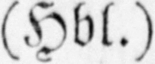(Hbl.)
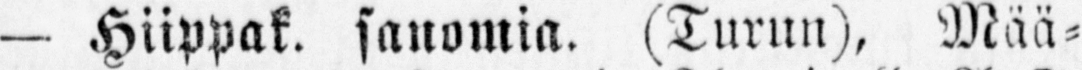— Hiippak. sanomia. (Turun), Mää-
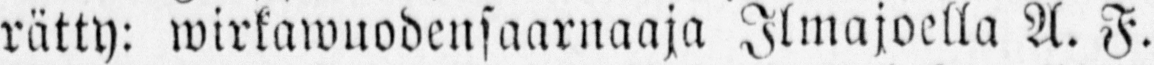rätty: wirkawuodensaarnaaja Ilmajoella A. F.
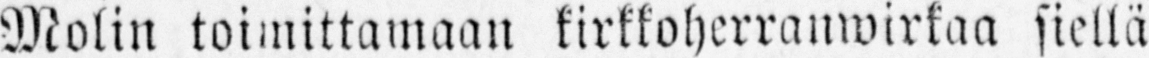Molin toimittamaan kirkkoherranwirkaa siellä
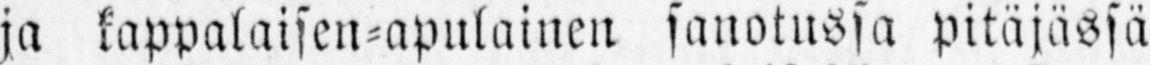ja kappalaisen-apulainen sanotussa pitäjässä
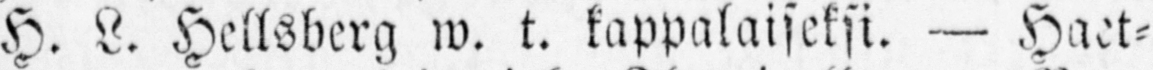H. L. Hellsberg w. t. kappalaiseksi. — Haet-
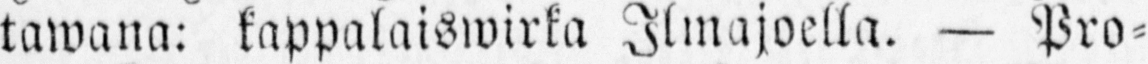tawana: kappalaiswirka Ilmajoella. — Pro-
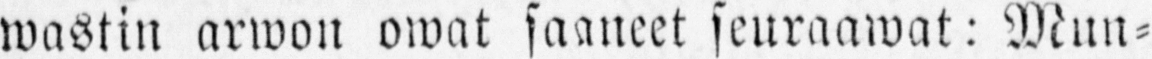wastin arwon owat saaneet seuraawat: Mun-
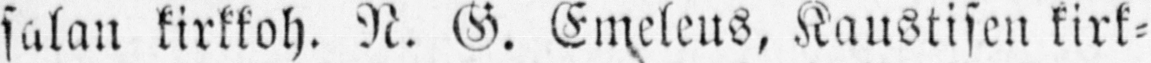salan kirkkoh. N. G. Emeleus, Kaustisen kirk-
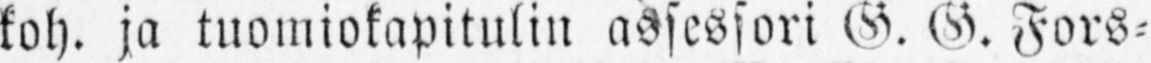koh. ja tuomiokapitulin assessori G. G. Fors-
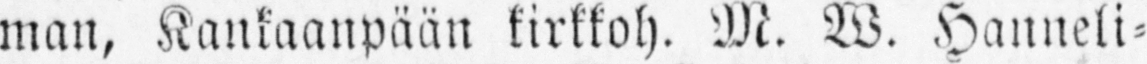man, Kankaanpään kirkkoh. M. W. Hanneli-
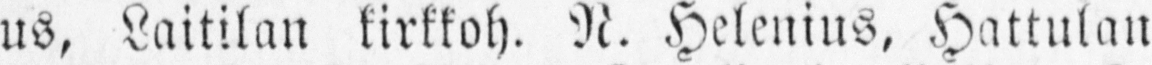us, Laitilan kirkkoh. N. Helenius, Hattulan
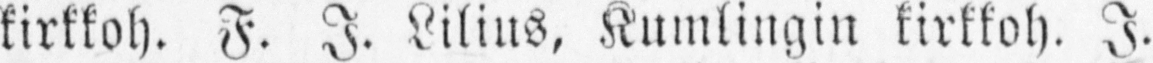kirkkoh. F. I. Lilius, Kumlingin kirkkoh. I.
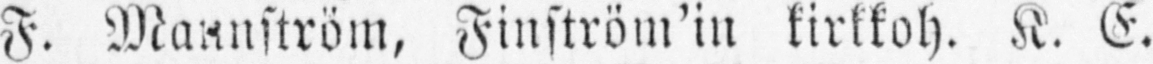F. Mannström, Finström'in kirkkoh. K. E.
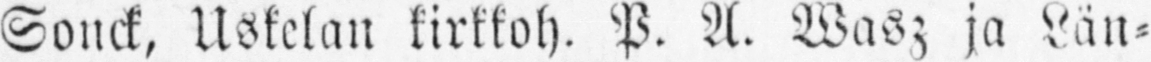Sonck, Uskelan kirkkoh. P. A. Wasz ja Län-
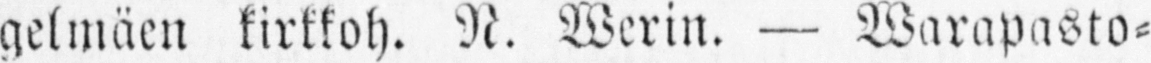gelmäen kirkkoh. N. Werin. — Warapasto-
